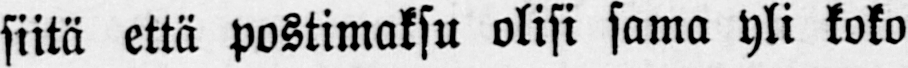siitä että postimaksu olisi sama yli koko
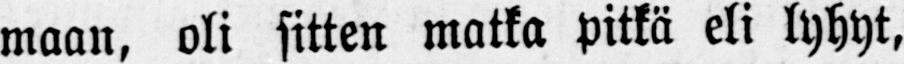maan, oli sitten matka pitkä eli lyhyt,
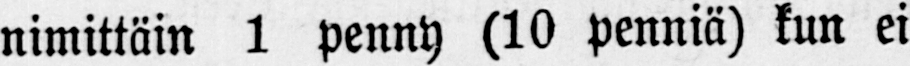nimittäin 1 penny (10 penniä) kun ei
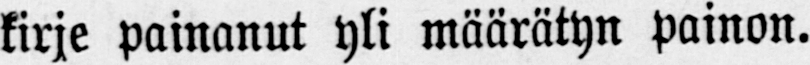kirje painanut yli määrätyn painon.
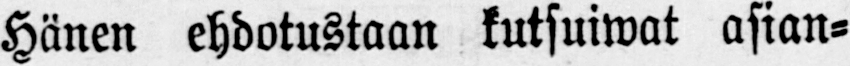Hänen ehdotustaan kutsuiwat asian-
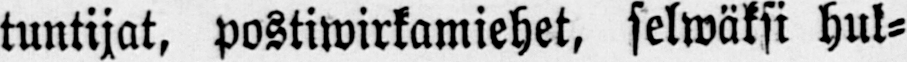tuntijat, postiwirkamiehet, selwäksi hul-
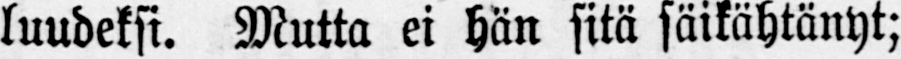luudeksi. Mutta ei hän sitä säikähtänyt;
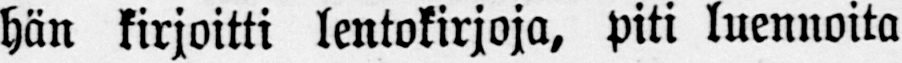hän kirjoitti lentokirjoja, piti luennoita
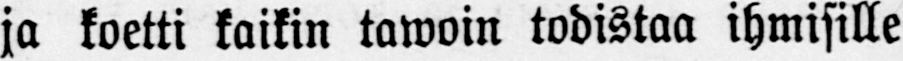ja koetti kaikin tawoin todistaa ihmisille
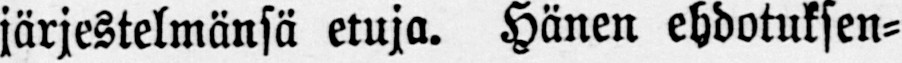järjestelmänsä etuja. Hänen ehdotuksen-
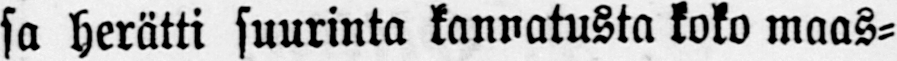sa herätti suurinta kannatusta koko maas-
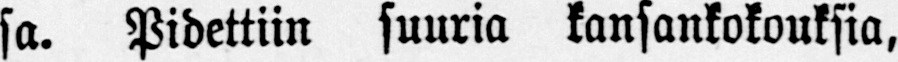sa. Pidettiin suuria kansankokouksia,
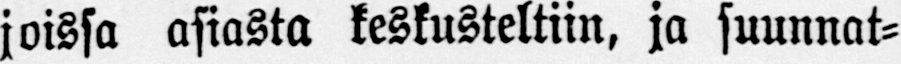joissa asiasta keskusteltiin, ja suunnat-
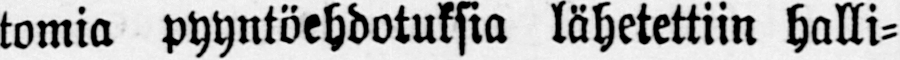tomia pyyntöehdotuksia lähetettiin halli-
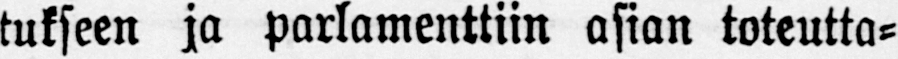tukseen ja parlamenttiin asian toteutta-
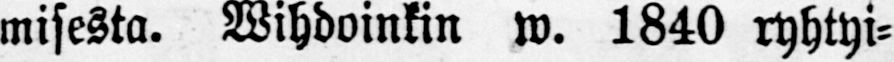misesta. Wihdoinkin w. 1840 ryhtyi-
